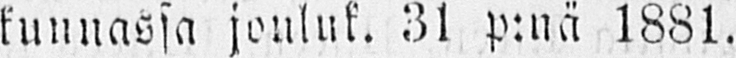kunnassa jonluk. 3l p:nä 188l.
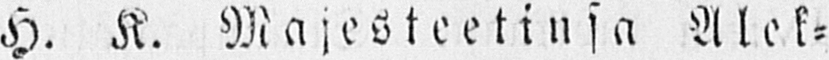H. K. Majesteetinsa Alek-
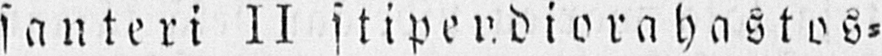santeri II stipeudiorahastos-
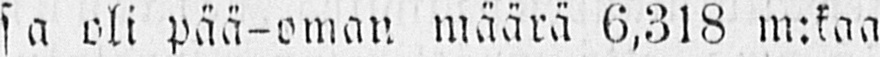sa oli pää-oman määrä 6,318 m:kaa
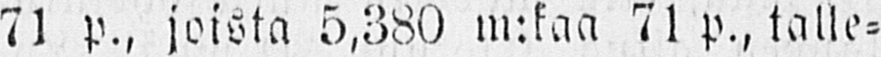7l p., joista 5,380 m:kaa 71 p., talle-
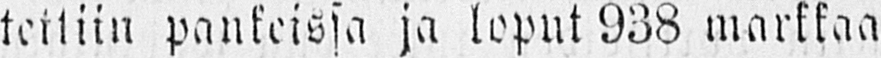tettiin pankeissa ja loput 938 markkaa
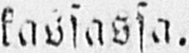kassassa.
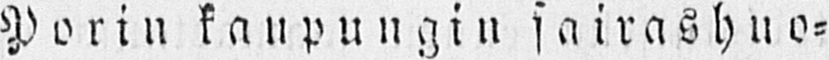Porin kaupungin sairashuo-
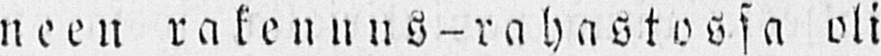neen rakennus-rahastossa oli
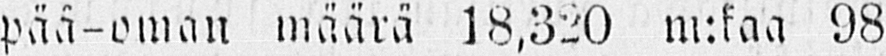pää-oman määrä 18,320 m:kaa 98
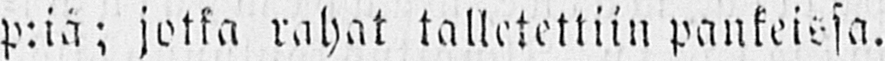p:ia; jotka rahat talletettiin pankeissa.
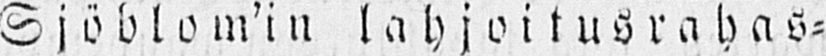Sjöblom'in lahjoitusrahas-
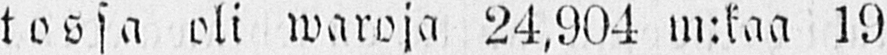tossa oli waroja 94,904 m:kaa 19
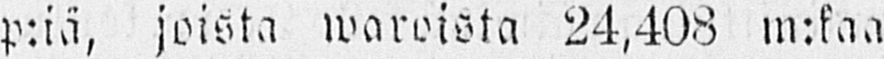p:iä, joista waroista 24,408 m:kaa
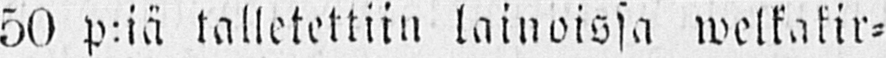50 pää talletettiin lainoissa welkatir-
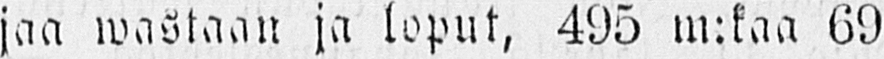jaa wastaan ja loput, 495 m:kaa 69
